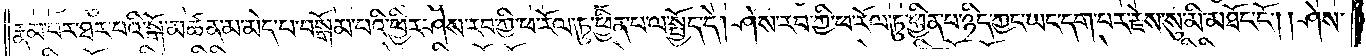རྣམ་པར་ཐར་པའི་སྒོ་མཚན་མ་མེད་པ་བསྒོམ་པའི་ཕྱིར་ཤེས་རབ་ཀྱི་ཕ་རོལ་ཏུ་ཕྱིན་པ་ལ་སྤྱོད་དེ། ཤེས་རབ་ཀྱི་ཕ་རོལ་ཏུ་ཕྱིན་པ་ཉིད་ཀྱང་ཡང་དག་པར་རྗེས་སུ་མི་མཐོང་ངོ༌། །ཤེས་
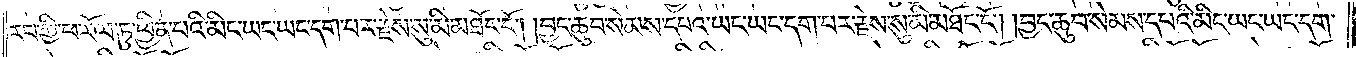རབ་ཀྱི་ཕ་རོལ་ཏུ་ཕྱིན་པའི་མིང་ཡང་ཡང་དག་པར་རྗེས་སུ་མི་མཐོང་ངོ༌། །བྱང་ཆུབ་སེམས་དཔའ་ཡང་ཡང་དག་པར་རྗེས་སུ་མི་མཐོང་ངོ༌། །བྱང་ཆུབ་སེམས་དཔའི་མིང་ཡང་ཡང་དག་
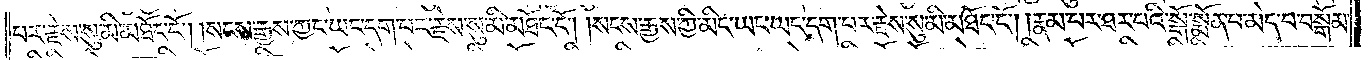པར་རྗེས་སུ་མི་མཐོང་ངོ༌། །སངས་རྒྱས་ཀྱང་ཡང་དག་པར་རྗེས་སུ་མི་མཐོང་ངོ༌། །སངས་རྒྱས་ཀྱི་མིང་ཡང་ཡང་དག་པར་རྗེས་སུ་མི་མཐོང་ངོ༌། །རྣམ་པར་ཐར་པའི་སྒོ་སྨོན་པ་མེད་པ་བསྒོམ་
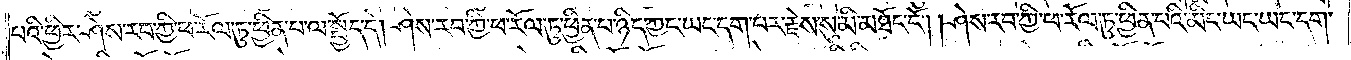པའི་ཕྱིར་ཤེས་རབ་ཀྱི་ཕ་རོལ་ཏུ་ཕྱིན་པ་ལ་སྤྱོད་དེ། ཤེས་རབ་ཀྱི་ཕ་རོལ་ཏུ་ཕྱིན་པ་ཉིད་ཀྱང་ཡང་དག་པར་རྗེས་སུ་མི་མཐོང་ངོ༌། །ཤེས་རབ་ཀྱི་ཕ་རོལ་ཏུ་ཕྱིན་པའི་མིང་ཡང་ཡང་དག་
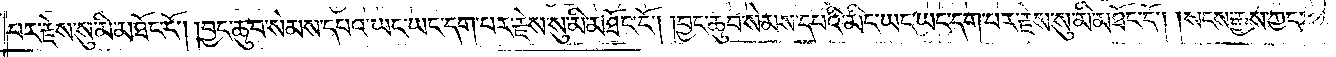པར་རྗེས་སུ་མི་མཐོང་ངོ༌། །བྱང་ཆུབ་སེམས་དཔའ་ཡང་ཡང་དག་པར་རྗེས་སུ་མི་མཐོང་ངོ༌། །བྱང་ཆུབ་སེམས་དཔའི་མིང་ཡང་ཡང་དག་པར་རྗེས་སུ་མི་མཐོང་ངོ༌། །སངས་རྒྱས་ཀྱང་
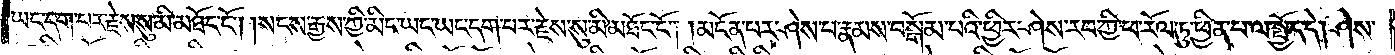ཡང་དག་པར་རྗེས་སུ་མི་མཐོང་ངོ༌། །སངས་རྒྱས་ཀྱི་མིང་ཡང་ཡང་དག་པར་རྗེས་སུ་མི་མཐོང་ངོ༌། །མངོན་པར་ཤེས་པ་རྣམས་བསྒོམ་པའི་ཕྱིར་ཤེས་རབ་ཀྱི་ཕ་རོལ་ཏུ་ཕྱིན་པ་ལ་སྤྱོད་དེ། ཤེས་
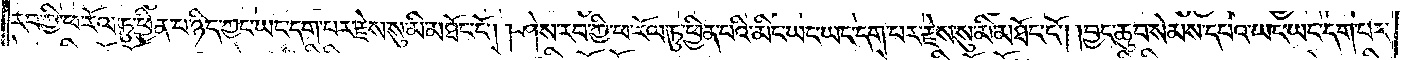རབ་ཀྱི་ཕ་རོལ་ཏུ་ཕྱིན་པ་ཉིད་ཀྱང་ཡང་དག་པར་རྗེས་སུ་མི་མཐོང་ངོ༌། །ཤེས་རབ་ཀྱི་ཕ་རོལ་ཏུ་ཕྱིན་པའི་མིང་ཡང་ཡང་དག་པར་རྗེས་སུ་མི་མཐོང་ངོ༌། །བྱང་ཆུབ་སེམས་དཔའ་ཡང་ཡང་དག་པར་
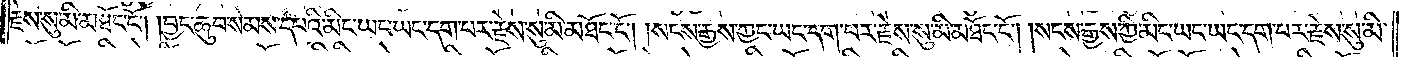རྗེས་སུ་མི་མཐོང་ངོ༌། །བྱང་ཆུབ་སེམས་དཔའི་མིང་ཡང་ཡང་དག་པར་རྗེས་སུ་མི་མཐོང་ངོ༌། །སངས་རྒྱས་ཀྱང་ཡང་དག་པར་རྗེས་སུ་མི་མཐོང་ངོ༌། །སངས་རྒྱས་ཀྱི་མིང་ཡང་ཡང་དག་པར་རྗེས་སུ་མི་
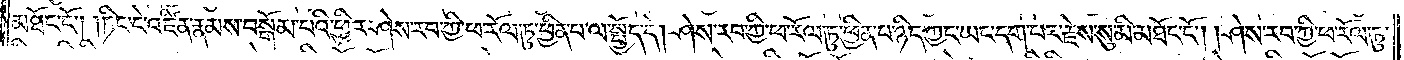མཐོང་ངོ༌། །ཏིང་ངེ་འཛིན་རྣམས་བསྒོམ་པའི་ཕྱིར་ཤེས་རབ་ཀྱི་ཕ་རོལ་ཏུ་ཕྱིན་པ་ལ་སྤྱོད་དེ། ཤེས་རབ་ཀྱི་ཕ་རོལ་ཏུ་ཕྱིན་པ་ཉིད་ཀྱང་ཡང་དག་པར་རྗེས་སུ་མི་མཐོང་ངོ༌། །ཤེས་རབ་ཀྱི་ཕ་རོལ་ཏུ་
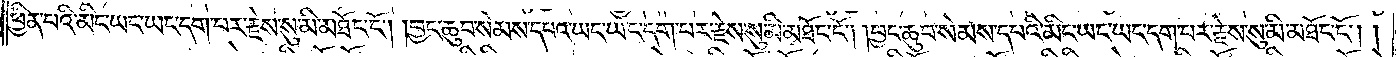ཕྱིན་པའི་མིང་ཡང་ཡང་དག་པར་རྗེས་སུ་མི་མཐོང་ངོ༌། །བྱང་ཆུབ་སེམས་དཔའ་ཡང་ཡང་དག་པར་རྗེས་སུ་མི་མཐོང་ངོ༌། །བྱང་ཆུབ་སེམས་དཔའི་མིང་ཡང་ཡང་དག་པར་རྗེས་སུ་མི་མཐོང་ངོ༌། །
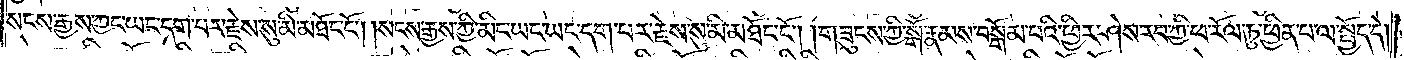སངས་རྒྱས་ཀྱང་ཡང་དག་པར་རྗེས་སུ་མི་མཐོང་ངོ༌། །སངས་རྒྱས་ཀྱི་མིང་ཡང་ཡང་དག་པར་རྗེས་སུ་མི་མཐོང་ངོ༌། །གཟུངས་ཀྱི་སྒོ་རྣམས་བསྒོམ་པའི་ཕྱིར་ཤེས་རབ་ཀྱི་ཕ་རོལ་ཏུ་ཕྱིན་པ་ལ་སྤྱོད་དེ།
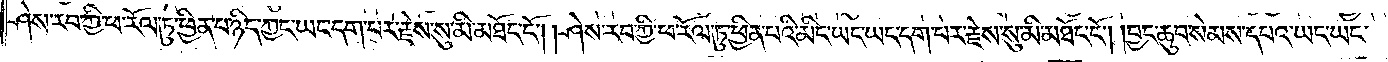ཤེས་རབ་ཀྱི་ཕ་རོལ་ཏུ་ཕྱིན་པ་ཉིད་ཀྱང་ཡང་དག་པར་རྗེས་སུ་མི་མཐོང་ངོ༌། །ཤེས་རབ་ཀྱི་ཕ་རོལ་ཏུ་ཕྱིན་པའི་མིང་ཡང་ཡང་དག་པར་རྗེས་སུ་མི་མཐོང་ངོ༌། །བྱང་ཆུབ་སེམས་དཔའ་ཡང་ཡང་
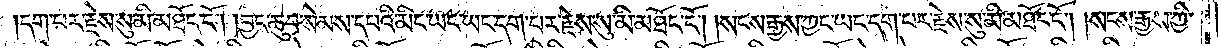དག་པར་རྗེས་སུ་མི་མཐོང་ངོ༌། །བྱང་ཆུབ་སེམས་དཔའི་མིང་ཡང་ཡང་དག་པར་རྗེས་སུ་མི་མཐོང་ངོ༌། །སངས་རྒྱས་ཀྱང་ཡང་དག་པར་རྗེས་སུ་མི་མཐོང་ངོ༌། །སངས་རྒྱས་ཀྱི་
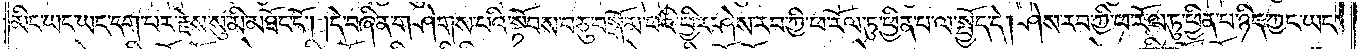མིང་ཡང་ཡང་དག་པར་རྗེས་སུ་མི་མཐོང་ངོ༌། །དེ་བཞིན་གཤེགས་པའི་སྟོབས་བཅུ་བསྒོམ་པའི་ཕྱིར་ཤེས་རབ་ཀྱི་ཕ་རོལ་ཏུ་ཕྱིན་པ་ལ་སྤྱོད་དེ། ཤེས་རབ་ཀྱི་ཕ་རོལ་ཏུ་ཕྱིན་པ་ཉིད་ཀྱང་ཡང་
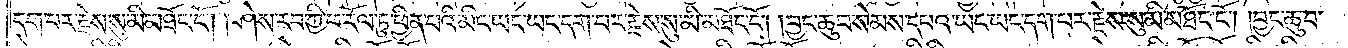དག་པར་རྗེས་སུ་མི་མཐོང་ངོ༌། །ཤེས་རབ་ཀྱི་ཕ་རོལ་ཏུ་ཕྱིན་པའི་མིང་ཡང་ཡང་དག་པར་རྗེས་སུ་མི་མཐོང་ངོ༌། །བྱང་ཆུབ་སེམས་དཔའ་ཡང་ཡང་དག་པར་རྗེས་སུ་མི་མཐོང་ངོ༌། །བྱང་ཆུབ་
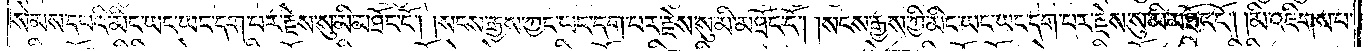སེམས་དཔའི་མིང་ཡང་ཡང་དག་པར་རྗེས་སུ་མི་མཐོང་ངོ༌། །སངས་རྒྱས་ཀྱང་ཡང་དག་པར་རྗེས་སུ་མི་མཐོང་ངོ༌། །སངས་རྒྱས་ཀྱི་མིང་ཡང་ཡང་དག་པར་རྗེས་སུ་མི་མཐོང་ངོ༌། །མི་འཇིགས་པ་
